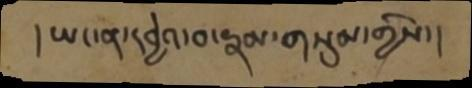།ཡང་ན་དབྱེའ་བ་རྣམ་གསུམ་གྱིས་།
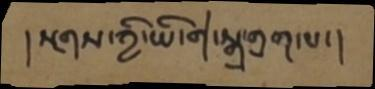།སྔགས་ཀྱི་ཡི་གེ་སྒྲ་གྲག་པ་།
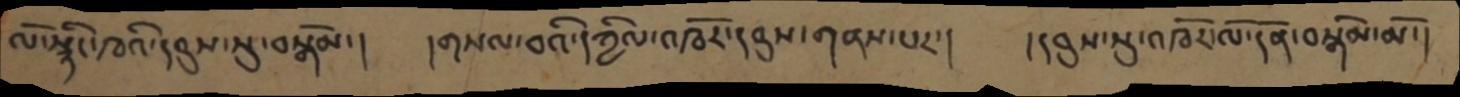ལོ་སྙིང་ཁའི་དབུས་སུ་བསྒོམ་།  །གསལ་བའི་ཀྱིལ་འཁོར་དབུས་གནས་པར་།  །དབུས་སུ་འཁོར་ལོ་དོན་བསྒོམ་མོ་།
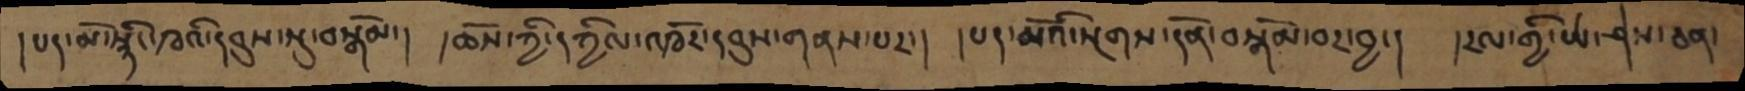།པད་མོ་སྙིང་ཁའི་དབུས་སུ་བསྒོམ་།  །ཆོས་ཀྱི་དཀྱིལ་འཁོར་དབུས་གནས་པར་།  །པད་མོའི་སྔགས་དོན་བསྒོམ་བར་བྱ་།  །རལ་གྱི་ཡེ་ཤེས་ཅན་
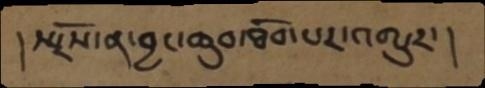།སྤྲོས་ན་བྱང་ཆུབ་ཐོབ་པར་འགྱུར་།
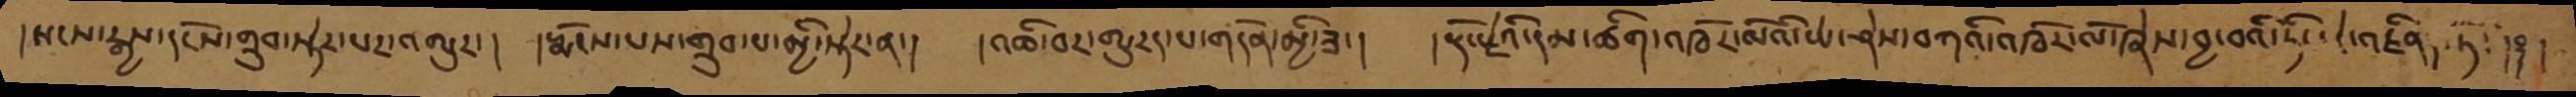།སངས་རྒྱས་དངོས་གྲུབ་སྟེར་པར་འགྱུར་།  །རྨོངས་པས་གྲུབ་པ་མྱི་སྟེར་ན་།  །འཆི་བར་གྱུརད་པ་གདོན་མྱི་ཟ་།  །རྡོ་རྗེའི་དམ་ཚིག་འཁོར་ལོའི་ཡེ་ཤེས་བཀའི་འཁོར་ལོ་ཞེས་བྱ་བའི་ཏིང་ངེ་འཛིནད་ཏོ་།࿑།
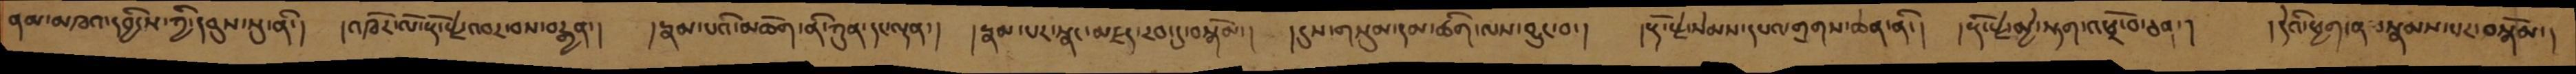ནམ་མཁའ་དབྱིངས་ཀྱི་དབུས་སུ་ནི་།  །འཁོར་ལོ་རྡོ་རྗེ་འབར་བས་བརྒྱན་།  །རྣམ་པའི་མཆོག་ནི་ཀུན་དང་ལྡན་། །རྣམ་པར་སྣང་མཛད་རབ་ཏུ་བསྒོམ་། །དུས་གསུམ་དམ་ཚིག་ལས་བྱུང་བ་། །རྡོ་རྗེ་སེམས་དཔའ་གྲགས་ཆེན་ནི་། །རྡོ་རྗེ་མྱེ་སྟག་འཕྲོ་བ་ཅན་།     །དེའི་ཕྱག་ན་བསྣམས་པར་བསྒོམ་།
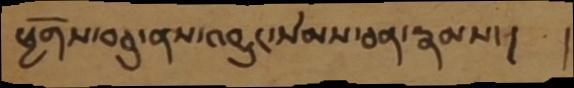ཕྱོགས་བཅུ་ནས་འབྱུང་སེམས་ཅན་རྣམས་།     །
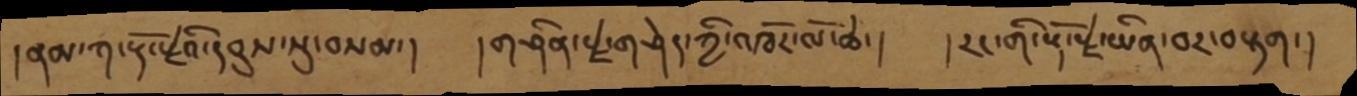།ནམ་ཀ་རྡོ་རྗེའི་དབུས་སུ་བསམ་།     །གཤིན་རྗེ་གཤེད་ཀྱི་འཁོར་ལོ་ཆེ་།     །རང་གི་རྡོ་རྗེ་ཡིན་བར་བརྟག་།
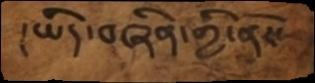།ཡིད་བཞིན་གྱི་ནོར་
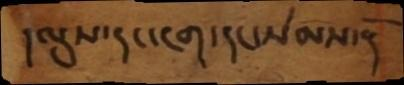།ལུས་དང་ངག་དང་སེམས་།
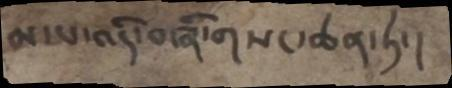མ་པ་འདི་བཞི་གསང་ཆེན་ཏེ་།
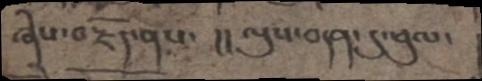ཞེས་བརྗོད་ནས་  །། ལུས་བདན་དུ་ཕུལ་
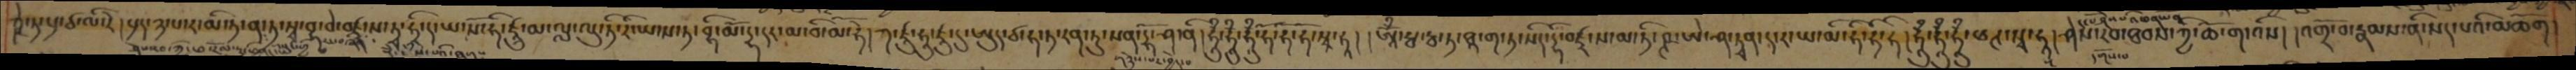ཀྵེ་ཏ་པྲ་ཙ་ལི་རེ། པྲད་྅་པ་ར་མི་ཏ་ན་ཏ་སྭ་བྷ་བེ་བཛྲ་ས་ཏྭ་ཧྲི་ད་ཡ་སོ་དྷི་ཛཱུ་མ་ལླ་ལུ་ཏི་རི་ཡ་ས་ཏ་ བྷི་མོ་དྷ་དར་མ་བི་མི་ཧེ། ཀ་ཛཱུ་ཧཱུ་ཛཱུ་དུ་ཨུད་ཙ་ཧ་ཏ་རན་ཏུ་སན་དྷོ་ཤ་ནི། ཧཱུྃ་ཧཱུྃ་ཧཱུྃ་ཧོ་ཧོ་ཧོ་སྭཱ་ཧཱ། །ཨཱོྃ་སྦ་རྦ་ཏ་ཐཱ་ག་ཏ་སིད་དྷི་བཛྲ་ས་མ་ཏི་ཥྚ་ཨེ་ཤ་ཏྭན་ད་ར་ཡ་མི་ཧི་ཧི་ཧི། ཧཱུྃ་ཧཱུྃ་ཧཱུྃ་ཕཊ་སྭཱ་ཧཱ། ཤེས་རབ་ཐབས་ཀྱི་ཆོ་ག་འིས། །འགྲོ་བ་རྣམས་ནི་སད་པའི་མཆོག།
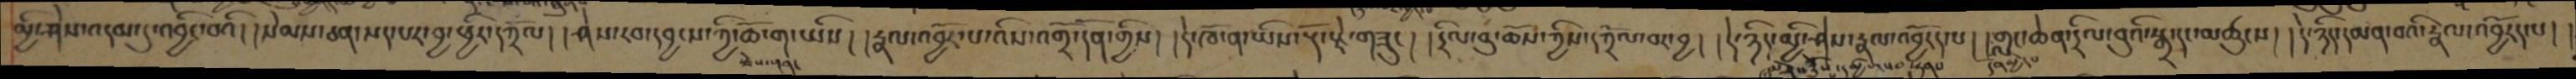མྱི་ཤེས་འདམ་དུ་འབྱིང་བའི། །སེམས་ཅན་སད་པར་བྱ་ཕྱིར་དཀྲོལ། །ཤེས་རབ་དབྱངས་ཀྱི་ཆོ་ག་ཡིས། །རྣལ་འབྱོར་པ་འིས་འགྲོ་དོན་གྱིས། །དེ་ཁོ་ན་ཡིས་རྡོ་རྗེ་གཟུང། །དྲིལ་བུ་ཆོས་ཀྱིས་དཀྲོལ་བར་བྱ། །དེ་ཉིད་མྱི་ཤེས་རྣལ་འབྱོརད་པ། །གླང་ཆེན་དྲིལ་བུའི་སྒྲ་དང་མཚུངསས། །དེ་ཉིད་དམན་བའི་རྣལ་འབྱོརད་པ།།
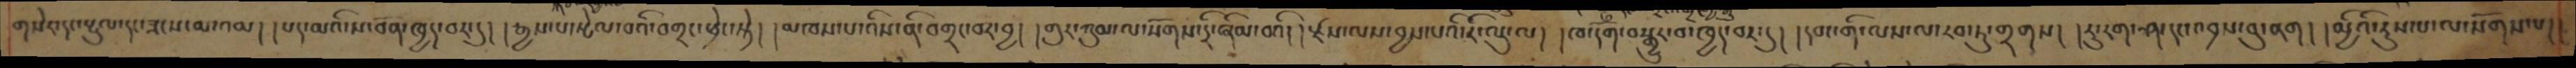གསེར་དང་རྔུལ་དང་ཟངས་མ་འམ། །པད་མའི་ས་བོན་ཁྱད་བར་དུ། །རྒྱས་པ་སྤེལ་བའི་བགྲང་ཕྲེང་སྟེ། །མཁས་པ་འིས་ནི་བགྲང་བར་བྱ། །གུར་གུམ་ལ་སོགས་དྲི་ཞིམ་བའི། །རྫས་ལས་བྱས་པའི་རི་ལུ་ལ། །ཁ་དོག་བསྒྱུར་བ་ཁྱད་པར་དུ། །དབང་གི་ལས་ལ་རབ་ཏུ་གྲགས། །རུ་རག་ཤ་དང་འབྲས་བུ་ནག། །མྱིའི་རུས་པ་ལ་སོགས་པ།།
